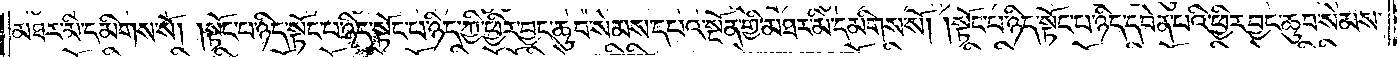མཐར་མི་དམིགས་སོ། །སྟོང་པ་ཉིད་སྟོང་པ་ཉིད་སྟོང་པ་ཉིད་ཀྱི་ཕྱིར་བྱང་ཆུབ་སེམས་དཔའ་སྔོན་གྱི་མཐར་མི་དམིགས་སོ། །སྟོང་པ་ཉིད་སྟོང་པ་ཉིད་དབེན་པའི་ཕྱིར་བྱང་ཆུབ་སེམས་
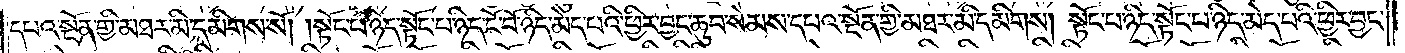དཔའ་སྔོན་གྱི་མཐར་མི་དམིགས་སོ། །སྟོང་པ་ཉིད་སྟོང་པ་ཉིད་ངོ་བོ་ཉིད་མེད་པའི་ཕྱིར་བྱང་ཆུབ་སེམས་དཔའ་སྔོན་གྱི་མཐར་མི་དམིགས་སོ། །སྟོང་པ་ཉིད་སྟོང་པ་ཉིད་མེད་པའི་ཕྱིར་བྱང་
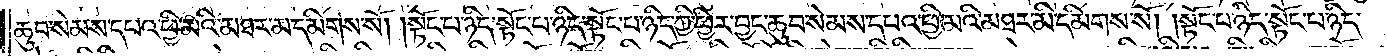ཆུབ་སེམས་དཔའ་ཕྱི་མའི་མཐར་མི་དམིགས་སོ། །སྟོང་པ་ཉིད་སྟོང་པ་ཉིད་སྟོང་པ་ཉིད་ཀྱི་ཕྱིར་བྱང་ཆུབ་སེམས་དཔའ་ཕྱི་མའི་མཐར་མི་དམིགས་སོ། །སྟོང་པ་ཉིད་སྟོང་པ་ཉིད་
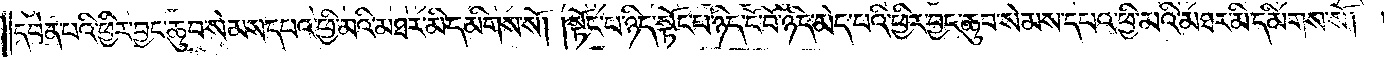དབེན་པའི་ཕྱིར་བྱང་ཆུབ་སེམས་དཔའ་ཕྱི་མའི་མཐར་མ་དམིགས་སོ། །སྟོང་པ་ཉིད་སྟོང་པ་ཉིད་ངོ་བོ་ཉིད་མེད་པའི་ཕྱིར་བྱང་ཆུབ་སེམས་དཔའ་ཕྱི་མའི་མཐར་མི་དམིགས་སོ། །
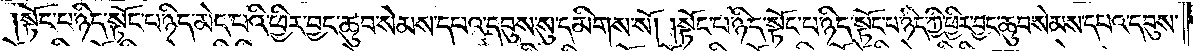སྟོང་པ་ཉིད་སྟོང་པ་ཉིད་མེད་པའི་ཕྱིར་བྱང་ཆུབ་སེམས་དཔའ་དབུས་སུ་མི་དམིགས་སོ། །སྟོང་པ་ཉིད་སྟོང་པ་ཉིད་སྟོང་པ་ཉིད་ཀྱི་ཕྱིར་བྱང་ཆུབ་སེམས་དཔའ་དབུས་
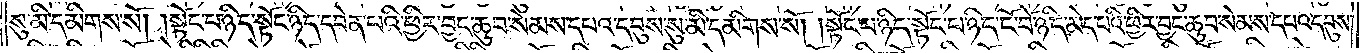སུ་མི་དམིགས་སོ། །སྟོང་པ་ཉིད་སྟོང་པ་ཉིད་དབེན་པའི་ཕྱིར་བྱང་ཆུབ་སེམས་དཔའ་དབུས་སུ་མི་དམིགས་སོ། །སྟོང་པ་ཉིད་སྟོང་པ་ཉིད་ངོ་བོ་ཉིད་མེད་པའི་ཕྱིར་བྱང་ཆུབ་སེམས་དཔའ་དབུས་
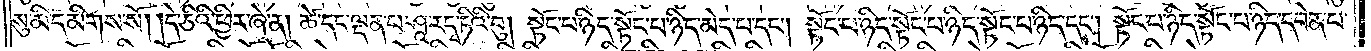སུ་མི་དམིགས་སོ། །དེ་ཅིའི་ཕྱིར་ཞེ་ན། ཚེ་དང་ལྡན་པ་ཤཱ་ར་དྭ་ཏིའི་བུ། སྟོང་པ་ཉིད་སྟོང་པ་ཉིད་མེད་པ་དང༌། སྟོང་པ་ཉིད་སྟོང་པ་ཉིད་སྟོང་པ་ཉིད་དང༌། སྟོང་པ་ཉིད་སྟོང་པ་ཉིད་དབེན་པ་
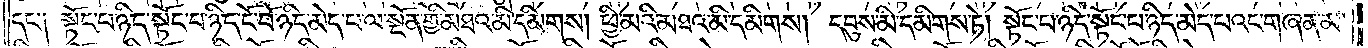དང་༑ སྟོང་པ་ཉིད་སྟོང་པ་ཉིད་ངོ་བོ་ཉིད་མེད་པ་ལ་སྔོན་གྱི་མཐའ་མི་དམིགས། ཕྱི་མའི་མཐའ་མི་དམིགས། དབུས་མི་དམིགས་ཏེ། སྟོང་པ་ཉིད་སྟོང་པ་ཉིད་མེད་པའང་གཞན་མ་
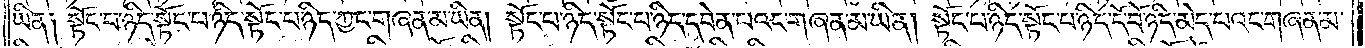ཡིན། སྟོང་པ་ཉིད་སྟོང་པ་ཉིད་སྟོང་པ་ཉིད་ཀྱང་གཞན་མ་ཡིན། སྟོང་པ་ཉིད་སྟོང་པ་ཉིད་དབེན་པའང་གཞན་མ་ཡིན། སྟོང་པ་ཉིད་སྟོང་པ་ཉིད་ངོ་བོ་ཉིད་མེད་པའང་གཞན་མ་
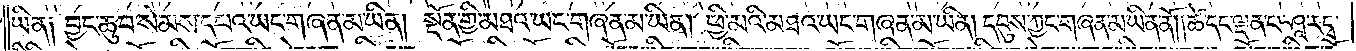ཡིན། བྱང་ཆུབ་སེམས་དཔའ་ཡང་གཞན་མ་ཡིན། སྔོན་གྱི་མཐའ་ཡང་གཞན་མ་ཡིན། ཕྱི་མའི་མཐའ་ཡང་གཞན་མ་ཡིན། དབུས་ཀྱང་གཞན་མ་ཡིན་ནོ། །ཚེ་དང་ལྡན་པ་ཤཱ་རདྭ་
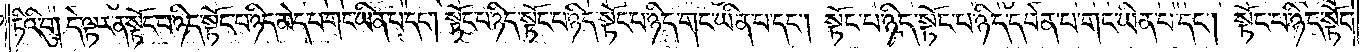ཏིའི་བུ། དེ་ལྟར་ན་སྟོང་པ་ཉིད་སྟོང་པ་ཉིད་མེད་པ་གང་ཡིན་པ་དང༌། སྟོང་པ་ཉིད་སྟོང་པ་ཉིད་སྟོང་པ་ཉིད་གང་ཡིན་པ་དང༌། སྟོང་པ་ཉིད་སྟོང་པ་ཉིད་དབེན་པ་གང་ཡིན་པ་དང༌། སྟོང་པ་ཉིད་སྟོང་
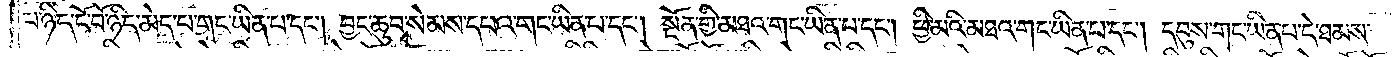པ་ཉིད་ངོ་བོ་ཉིད་མེད་པ་གང་ཡིན་པ་དང༌། བྱང་ཆུབ་སེམས་དཔའ་གང་ཡིན་པ་དང༌། སྔོན་གྱི་མཐའ་གང་ཡིན་པ་དང༌། ཕྱི་མའི་མཐའ་གང་ཡིན་པ་དང༌། དབུས་གང་ཡིན་པ་དེ་ཐམས་
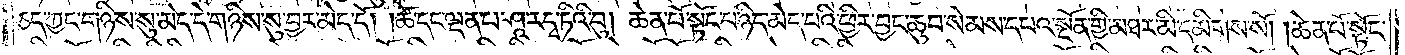ཅད་ཀྱང་གཉིས་སུ་མེད་དེ་གཉིས་སུ་བྱར་མེད་དོ། །ཚེ་དང་ལྡན་པ་ཤཱ་རདྭ་ཏིའི་བུ། ཆེན་པོ་སྟོང་པ་ཉིད་མེད་པའི་ཕྱིར་བྱང་ཆུབ་སེམས་དཔའ་སྔོན་གྱི་མཐར་མི་དམིགས་སོ། ཆེན་པོ་སྟོང་
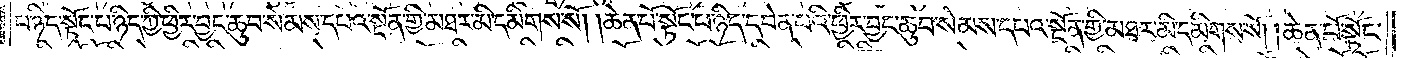པ་ཉིད་སྟོང་པ་ཉིད་ཀྱི་ཕྱིར་བྱང་ཆུབ་སེམས་དཔའ་སྔོན་གྱི་མཐར་མི་དམིགས་སོ། །ཆེན་པོ་སྟོང་པ་ཉིད་དབེན་པའི་ཕྱིར་བྱང་ཆུབ་སེམས་དཔའ་སྔོན་གྱི་མཐར་མི་དམིགས་སོ། །ཆེན་པོ་སྟོང་
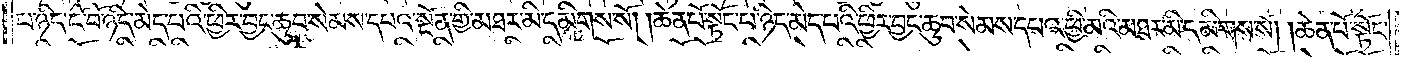པ་ཉིད་ངོ་བོ་ཉིད་མེད་པའི་ཕྱིར་བྱང་ཆུབ་སེམས་དཔའ་སྔོན་གྱི་མཐར་མི་དམིགས་སོ། །ཆེན་པོ་སྟོང་པ་ཉིད་མེད་པའི་ཕྱིར་བྱང་ཆུབ་སེམས་དཔའ་ཕྱི་མའི་མཐར་མི་དམིགས་སོ། །ཆེན་པོ་སྟོང་
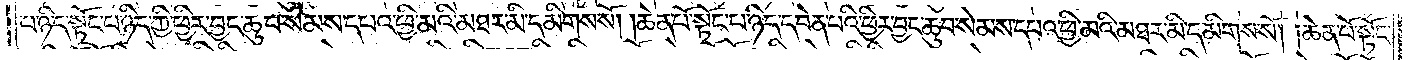པ་ཉིད་སྟོང་པ་ཉིད་ཀྱི་ཕྱིར་བྱང་ཆུབ་སེམས་དཔའ་ཕྱི་མའི་མཐར་མི་དམིགས་སོ། །ཆེན་པོ་སྟོང་པ་ཉིད་དབེན་པའི་ཕྱིར་བྱང་ཆུབ་སེམས་དཔའ་ཕྱི་མའི་མཐར་མི་དམིགས་སོ། །ཆེན་པོ་སྟོང་
